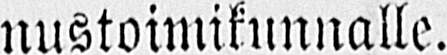nustoimikunnalle.
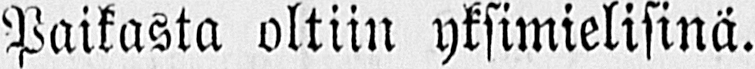Paikasta oltiin yksimielisinä.
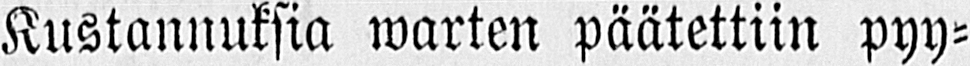Kustannuksia warten päätettiin pyy-
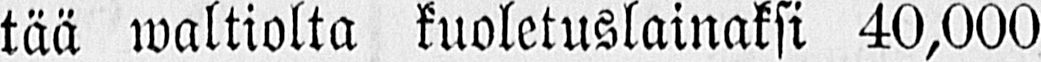tää waltiolta kuoletuslainaksi 40,000
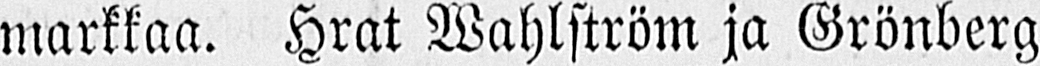markkaa. Hrat Wahlström ja Grönberg
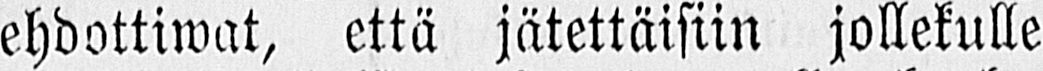ehdottiwat, että jätettäisiin jollekulle
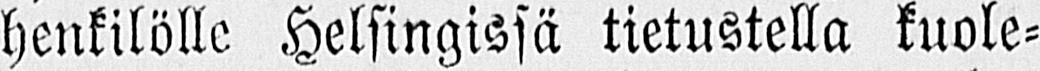henkilölle Helsingissä tietustella kuole-
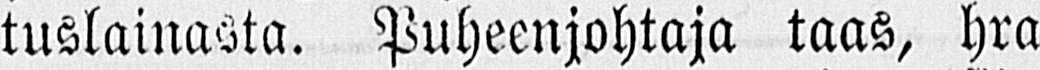tuslainasta. Puheenjohtaja taas, hra
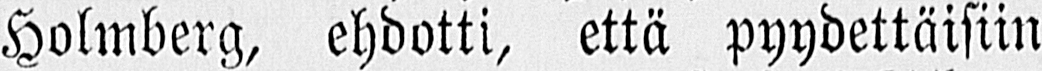Holmberg, ehdotti, että pyydettäisiin
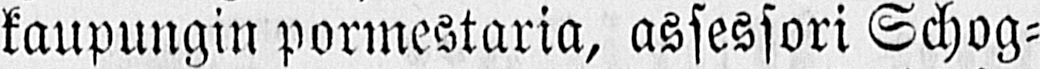kaupungin pormestaria, assessori Schog-
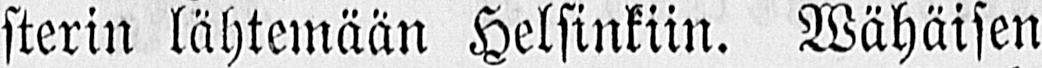sterin lähtemään Helsinkiin. Wähäisen
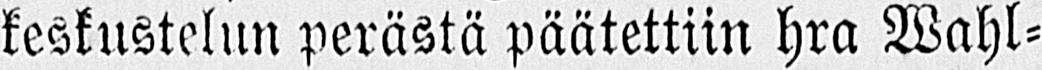keskustelun perästä päätettiin hra Wahl-
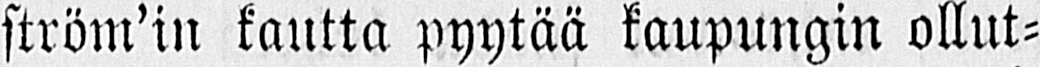ström'in kautta pyytää kaupungin ollut-
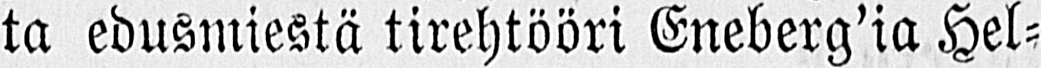ta edusmiestä tirehtööri Eneberg'ia Hel-
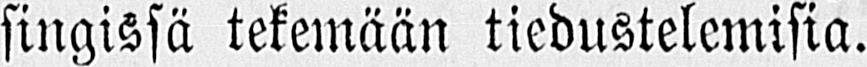singissä tekemään tiedustelemisia.
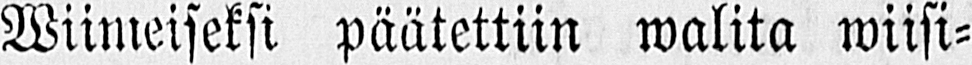Wiimeiseksi päätettiin walita wiisi-
